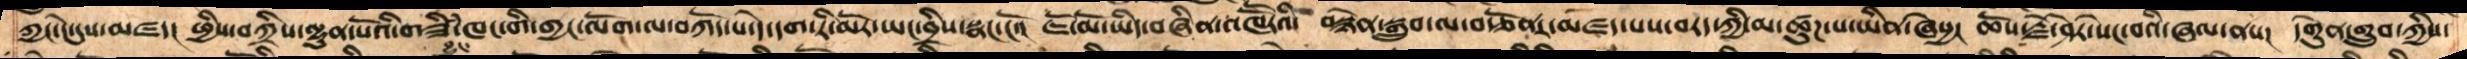ཀྱང་དེ་དུས་མཛད། ཕྱིས་བཀྲིས་ལྷུན་པོའི་གཟིཾ་ཁང་གི་གྱང་ལོག་ལ་བཀོད་པ་དེ་དག་རི་མོར་ཡང་བྲིས་སྣང་ངོ་།  ཇོ་མོ་ཡིད་བཞིན་འཁོརོའི་ བསྙེན་སྒྲུབ་ལ་བརྩོནར་མཛད་པས་བརད་ཀྱི་མ་ཚུཌ་པ་ཡིན་ཞེསྱ། ཆོས་རྗེ་ཤེར་སེང་བའི་ཞལ་ནས། དགེུན་གྲུབ་ཀྱིས་
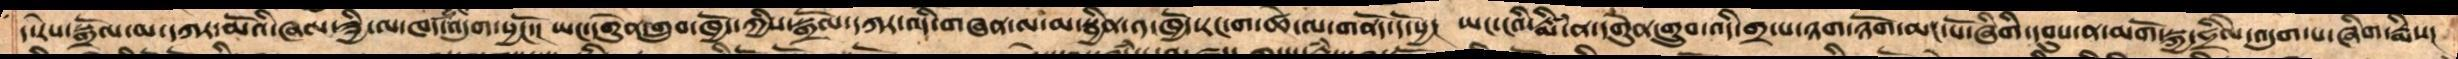ད་རེས་སྒྲོལ་མ་དཀར་མོའི་ཞལ་ཟྱི་ལ་ཁད་འདུག་སྱངོ་།  ཡང་དགེུན་གྲུབ་ཁྱོད་ཀྱིས་སྒྲོལ་དཀར་འདི་གཞན་ལ་མ་སྦྱིན་༡་ཁྱོད་རང་ག་ཚེ་ལ་གནོད་དོ་སྱ།  ཡང་ངའི་རྨི་ཾན་དགེུན་གྲུབ་འདི་གྲ་པ་ཉག་ཉོག་མང་པོ་ཞིགི་དབུས་ན་མགོ་སྐྱ་ཧྲིལེ་འདུག་པ་ཞིག་རྨིས།
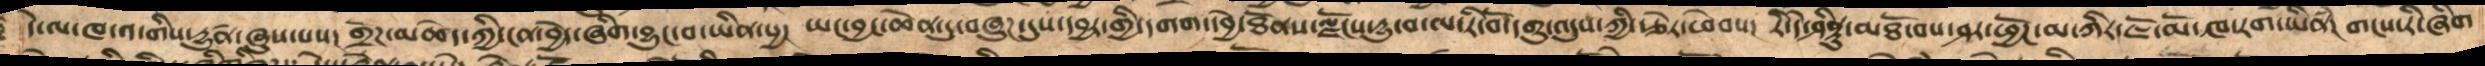དེ་ལ་ཁ་༡་གིས་དྱུཚན་ཞུས་པས།   གྲོཌ་མཆེད་ཀྱི་ངན་བྱེད་ཞིག་བྱུང་བ་ཡིན་སྱ།  ཡང་བྱང་ཆེན་དུ་བཞུཌ་དུས་དབྱར་གྱི་དགག་དབྱེ་ཐོནས་ལྗོངས་དྱུ་བ་ལ་རི་བོ་དགུ་འདུས་ཀྱི་རྩེར་ཕེབས།  རི་དེ་ཤིནྟུ་མཐོ་བས་ཤར་ཕྱོཌ་མ་ཀིར་ཇོ་མོ་ཁ་རག་ཡིནཾ།  གངས་རི་ཞིག
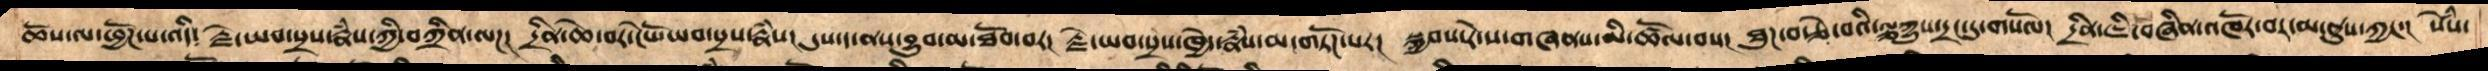ཆོས་ལ་ཕྱོཌ་པ་འདི༴  རྗེ་ཡབ་སྲས་རྣཾས་ཀྱི་བཀྲིན་ལཌ།  དྲིན་ཆེ་བར་ངེསོ་ཡབ་སྲས་རྣཾས།   དུས་ད་ནས་བྱུབ་མ་ཐོབ་བར།  རྗེ་ཡབ་སྲས་ཁྱེད་རྣཾས་མ་གཏོཌ་པར།   སྐྱབས་རེ་ས་གཞནས་མི་ཚོལ་བས།  ཐུཌ་བརྩེ་བའི་ལྕཀྱུས་དྲང་དུ་གསོལ།  དྲིན་ཇི་བཞིན་འཁོར་བར་མ་ནུས་ཀྱང་།  སེཾས་
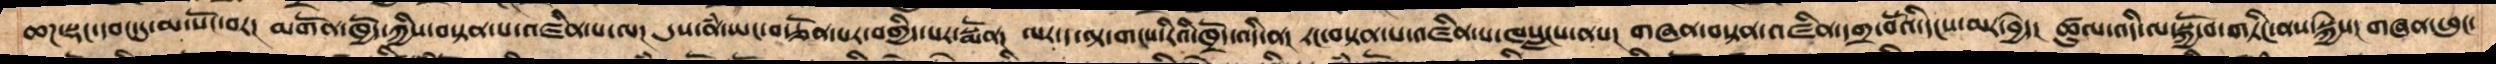ཆཌ་སྡང་དབང་དུ་མ་སོང་བར།  མགོན་ཁྱོད་ཀྱིས་བསྟན་པ་འཛིན་པ་ལ།  དུས་ནཾ་ཡང་བརྩོན་པར་བགྱིད་པར་སྨོན།  ལར་ད་ལྟ་གངས་རིའི་ཁྲོད་འདི་ན།  རང་བསྟན་པ་འཛིན་པ་ཁསླངས་ནས།  གཞན་བསྟན་འཛིན་དགྲ་བོའི་དངས་མར་བྱེད།  ཚུལ་འདི་ལ་སྐྱོ་བ་གཏིང་ནས་སྐྱེས། གཞན་ཕུང་
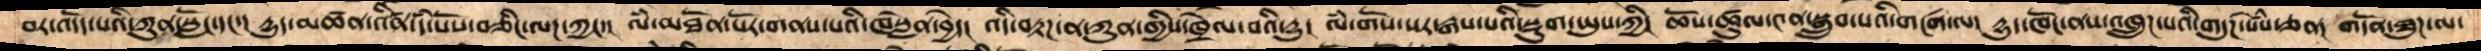བར་འདོད་པའི་ཀུན་སློང་དང་།  དྱུད་མཚན་འཛིན་དཾ་པོས་བཅིང་ལཌ་ཀྱང་།  ལཾ་མཐོན་པོར་གནས་པའི་ཁེསླན་བྱེད།  འདི་བརྟཌ་ན་ཀུན་གྱིས་ཁྲེལ་བའི་དྱུ།  ལཾ་གོས་སར་རྒས་པའི་སྡུག་ཡུས་ཀྱི།  ཆོས་ཚུལ་༤ན་སྒྲུབ་པའི་གངཟག་ལ།  དྱུད་ཁོང་ནས་འཁྲུཌ་པའི་གདུཌ་སེསཾ་ཅན། གདོན་ཐུཌ་ལ་
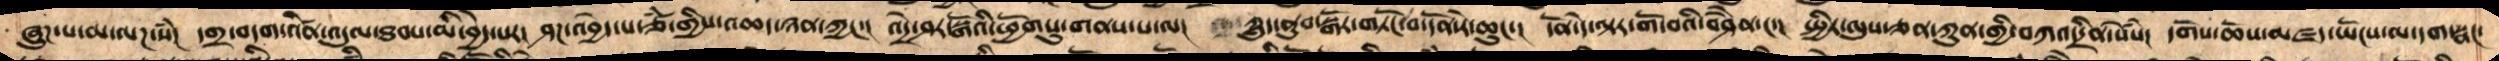ཞུཌ་པ་མ་ལཌ་སཾ།  དགྲ་བདག་འཛིན་འདུལ་ཐབས་མི་བྱེད་པར།  ཤཌ་འབྱེད་པ་ཙཾ་གྱིས་འཆད་ཉན་ཀྱང་།  འདྲེ་ཤར་སྒོའི་ཕྱོགསུ་གནས་པ་ལ།  ཀླུད་ནུབ་སྒོར་གཏོང་བ་དོན་རེ་ཆུང་།  དོན་དེ་ལྟར་གོ་བའི་བཤཻན་ང་།  སྤྱིར་ལུས་ཅན་ཀུན་གྱི་བཀའ་དྲིན་སེསཾ།  དགོས་ཆོས་མཛད་ཡོངས་ལ་དག་སྣང་
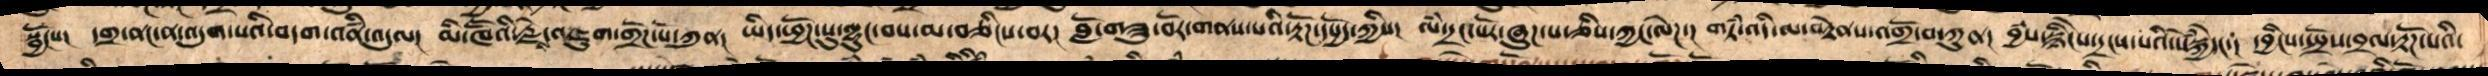སྦྱོངས་།  དགྲ་ནང་ན་འདུག་པའི་བདག་འཛིན་འདུལ།  མི་ཁཽའི་རྗེས་འཇུག་གྲོཌ་པོ་ཀུན།  ཡིད་ཕྱོཌ་སུ་ལྷུང་བས་མ་བཅིངས་བར།  བློ་གཟུ་བོར་གནས་པའི་རྟོཌ་དཔྱོད་ཀྱིས།  ལཾ་དྲང་པོར་ཞུཌ་པ་ཅིས་ཀྱང་ལེཌ།  གཏཾ་འདི་ལ་བརྟེནས་འགྲོ་བ་ཀུན།  བྱཾས་སྙིངེས་དྲངས་པའི་སེཾསྐྱེདང་།  དབྱིངས་སྤྲོས་བྲལ་རྟོཌ་པའི་
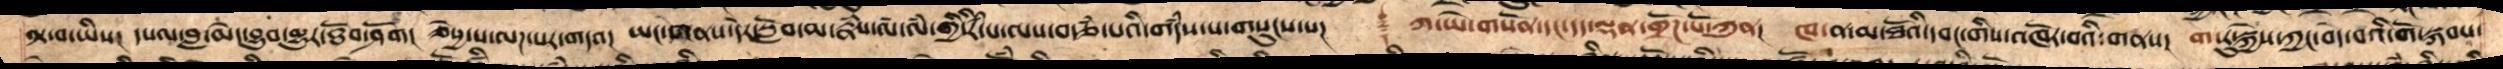ལྟ་བ་ཡིས།  དཔལ་བླ་མེད་བྱུབ་མྱུར་ཐོབ་ཤོག།  ཅེསྱ་པ་ལཌ་པར་གདའ།  ཡང་གནས་དེར་སློབ་མ་རྣཾས་ལ་ལཾ་གྱི་རིཾ་པ་ལས་བརྩཾ་པའི་གདཾས་པ་གསུངས་པ།  ࿑  ཀ་ཡེ་གསན་དང་དད་ལྡན་གྲོཌ་པོ་ཀུན།  ཁ་ན་མ་ཐོའི་དབང་གིས་འཁོར་བའི་གནས།  ག་རུ་སྐྱེས་ཀྱང་བདེ་བའི་གོ་སྐབས་
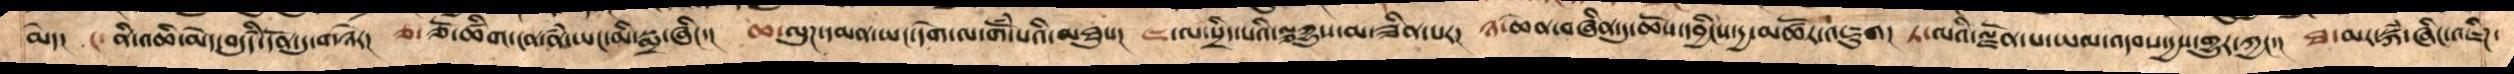མེད། །་ ནི་འཆི་མེད་བདུདརྩི་་དོན་དུ་གཉེར།  ཅ་ཅོ་ཚིག་ངན་ནཾ་ཡང་མི་སྨྲ་ཞིང་།  ཆ་ལུཌ་དམན་ཡང་དགེ་ལ་སྒོཾ་པའི་མཐུས།  ཇ་ལ་སྲིད་པའི་ལྕཀྱུས་མ་ཟིན་པར།  ཉ་ཆེན་བཞིན་དུ་ཆོས་དབྱིངས་དྱ་མཚོར་འཇུག།  ཏ་ལའི་ལྗོན་པ་ཡལ་འདབས་དྱས་གྱུར་ཀྱང་།  ཐ་མར་སྐཾ་ཞིང་འཇིཌ་
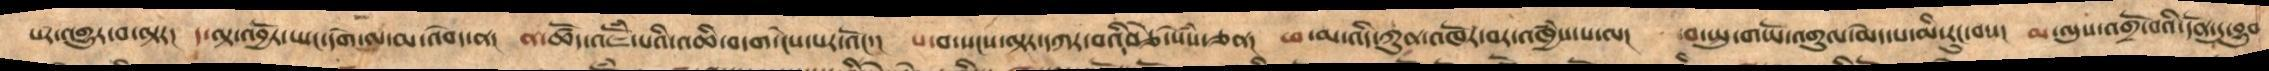པར་འགྱུར་བ་ལྟར།  ད་ལྟ་འབྱོར་ཡང་དགེ་ལ་མ་འབེད་ན།  ན་ཚོད་འཇོཾ་པའི་འཆི་བདག་ངེས་པར་འོང་།  པ་བ་སངས་ལྟར་དཀར་བའི་བརྩེ་སེཾས་ཅན།  ཕ་མ་འདི་ཀུན་འཁོར་བར་འཁྱཾས་པ་ལ།  བ་སྤུ་གཡོ་འགུལ་མེད་པ་མི་རུང་བས།  མ་ལུས་འགྲོ་བའི་དོན་དུ་བྱུབ
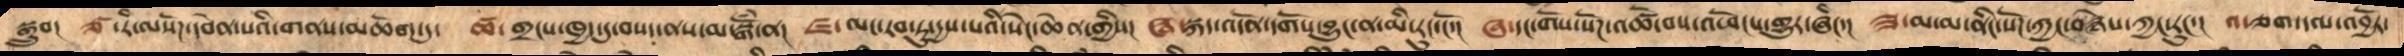སྒྲུབ།  ཙ་རི་ལསོཌ་དབེན་པའི་གནས་མཆོག་དུ་།  ཚ་གྲངས་ཁྱད་དུ་བསད་ནས་མ་སྒོཾ་ན།  ཛ་ལང་རབ་ཏུ་དྱས་པའི་སེང་ཆེན་གྱིས་།  ཝ་སྐད་འདོན་དགོས་བྱུང་ན་མི་རུང་ངོ་།  ཞ་དང་གོས་སོཌ་འཚོ་བས་འཕོངས་གྱུར་ཞིང་།  ཟ་མ་མ་ནིང་སོཌ་ཀྱང་བསྙེས་ཀྱང་རུང་།  འ་ཅག་དལ་འབྱོར་
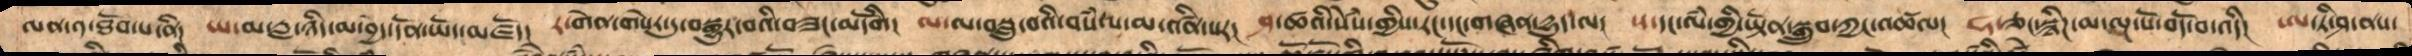ལན་༡་ཐོབ་པ་ནི། ཡ་མ་རླ་ཉིད་མ་བྱེད་དོན་ཡོད་མཛོད།  ར་གེན་གསེར་དུ་བསྒྱུར་བའི་བཟང་མདོགི།  ལ་ལ་བསླུ་བའི་བསཾ་པ་མ་འཛིན་པར། ཤ་ཚའི་སེཾས་ཀྱིས་རང་དང་གཞན་དྱུད་ལ།  ས་དང་ལཾ་གྱི་ཡྟོནསྒྲུབ་ཀྱང་འཚལ།  ཧ་ཅང་སྙིཌ་མ་ལྔ་པོ་བདོ་བ་འདི། ཨ་ཏི་ཤ་ནས་
